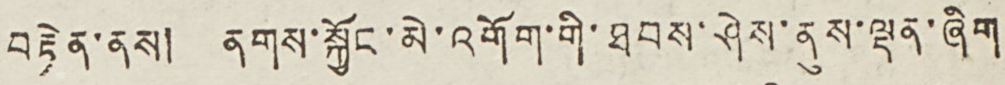བརྟེན་ནས། ནགས་སྐྱོང་མེ་འགོག་གི་ཐབས་ཤེས་ནུས་ལྡན་ཞིག
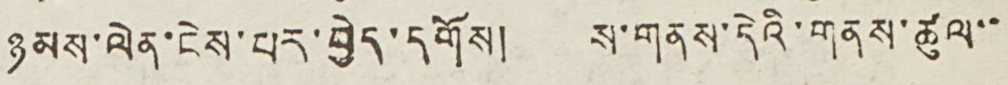ཉམས་ལེན་ངེས་པར་བྱེད་དགོས། ས་གནས་དེའི་གནས་ཚུལ་་
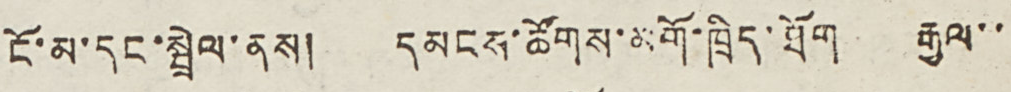ངོ་མ་དང་སྤྲེལ་ནས། དམངས་ཚོགས་མགོ་ཁྲིད་ཐོག རྒྱལ་་
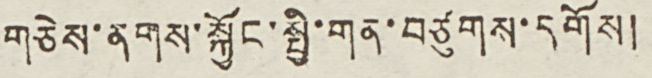གཅེས་གནས་སྐྱོང་སྤྱི་གན་བཙུགས་དགོས།
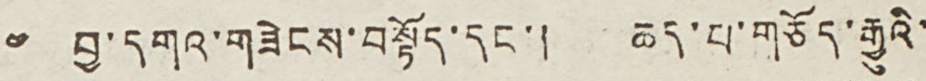༤ བྱ་དགའ་གཟེངས་བསྟོད་དང་། ཆད་པ་གཅོད་རྒྱུའི་
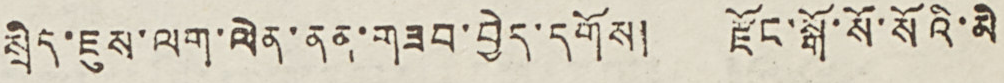སྲིད་ཇུས་ལག་ལེན་ནན་གཟབ་བྱེད་དགོས། རྫོང་སྒོ་སོ་སོའི་མི
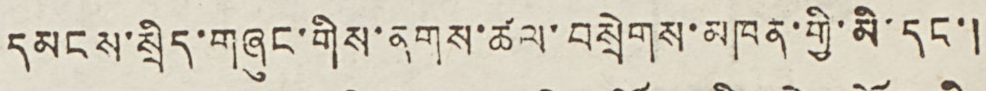དམངས་སྲིད་གཞུང་གིས་ནགས་ཚལ་བསྲེགས་མཁན་གྱི་མི་དང་།
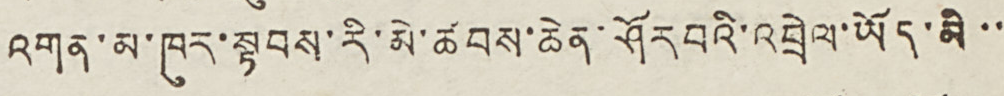འགན་མ་ཁུར་སྟབས་རི་མེ་ཚབས་ཆེན་ཤོར བའི་འབྲེལ་ཡོད་མི་་
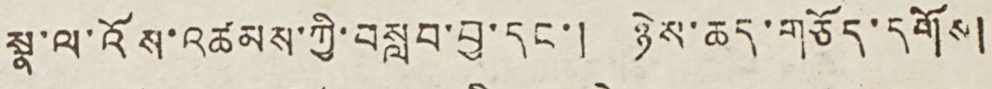སྣ་ལ་འོས་འཚམས་ཀྱི་བསླབ་བྱ་དང་། ཉེས་ཆད་གཅོད་དགོས།
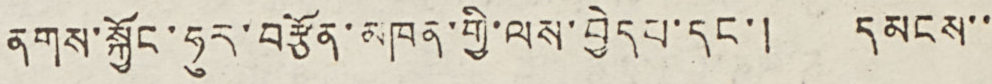ནགས་སྐྱོང་ཧུར་བརྩོན་མཁན་གྱི་ལས་བྱེད པ་དང་། དམངས་་
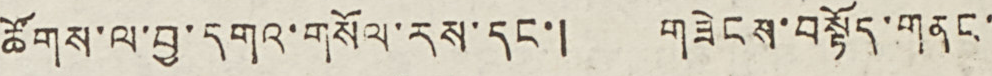ཚོགས་ལ་བྱ་དགའ་གསོལ་རས་དང་། གཟེངས་བསྟོད་གནང་
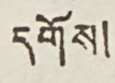དགོས།
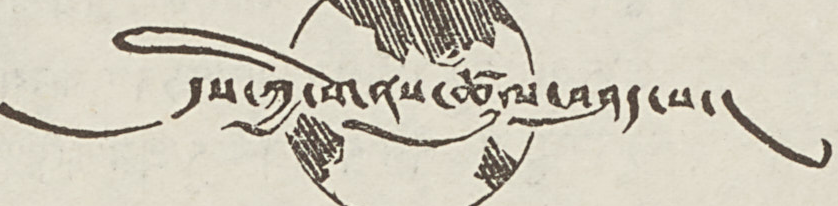དུས་ཀྱི་གནས་ཚུལ་བཤད་པ།
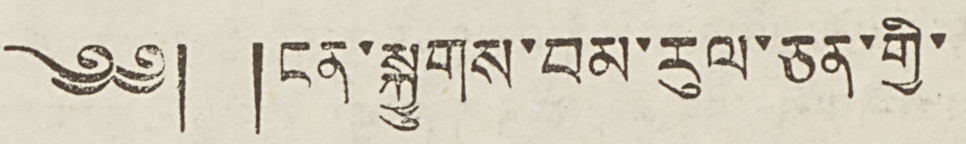༄༅། །ངན་སྐྱུགས་བམ་རུལ་ཅན་གྱི་
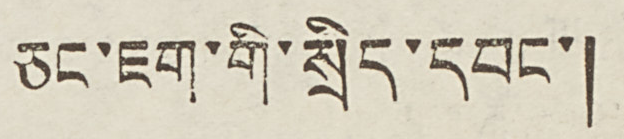ཅང་ཇག་གི་སྲིད་དབང་།
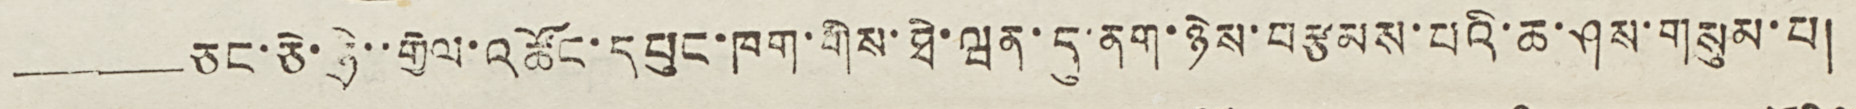——ཅང་ཅེ་ཧྲི་་རྒྱལ་འཚོང་དཔུང་ཁག་གིས་ཐེ་ཝན་དུ་ནག་ཉེས་བརྩམས་པའི་ཆ་ཤས་གསུམ་པ།
